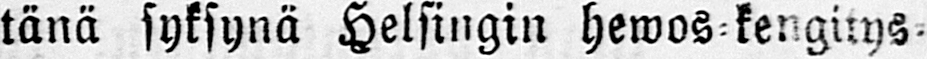tänä syksynä Helsingin hewos kengitys-
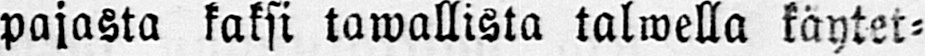pajasta kaksi tawallista talwella käytet-
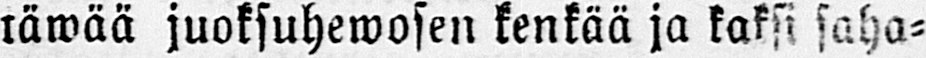räwää juoksuhewosen kenkää ja kaksi saha-
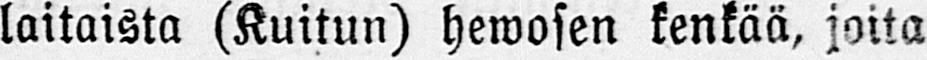laitaista (Kuitun) hewosen kenkää, joita
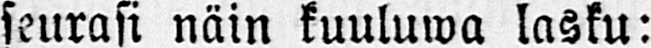seurasi näin kuuluwa lasku:
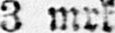3 mrk.
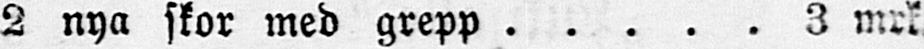2 nya skor med grepp 3 mrk
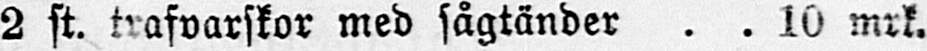2 st. trafvarskor med sågtänder 10 mrk.
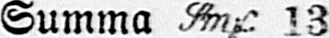Summa 13
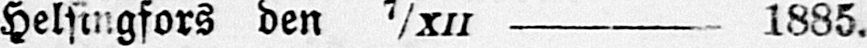Helsingfors den 7/XII 1885.
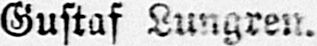Gustaf Lungren.
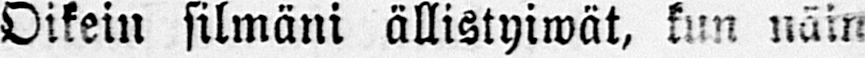Oikein silmäni ällistyiwät, kun näin
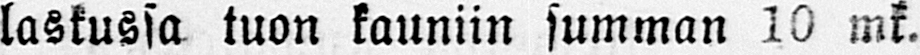laskussa tuon kauniin summan 10 mk.
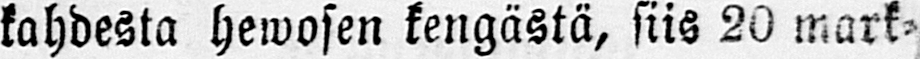kahdesta hewosen kengästä, siis 20 mark-
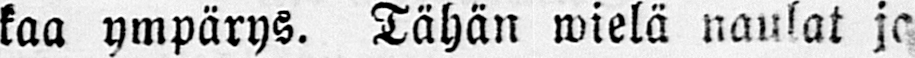kaa ympärys. Tähän wielä naulat ja
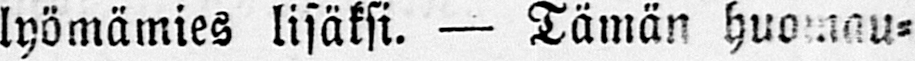lyömämies lisäksi. — Tämän huomau-
